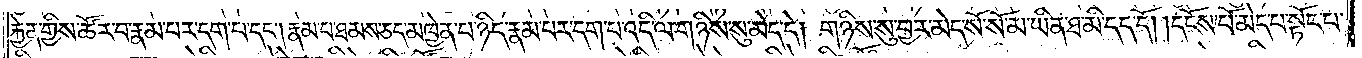རྐྱེན་གྱིས་ཚོར་བ་རྣམ་པར་དག་པ་དང༌། རྣམ་པ་ཐམས་ཅད་མཁྱེན་པ་ཉིད་རྣམ་པར་དག་པ་འདི་ལ་གཉིས་སུ་མེད་དེ། གཉིས་སུ་བྱར་མེད་སོ་སོ་མ་ཡིན་ཐ་མི་དད་དོ། །དངོས་པོ་མེད་པ་སྟོང་པ་
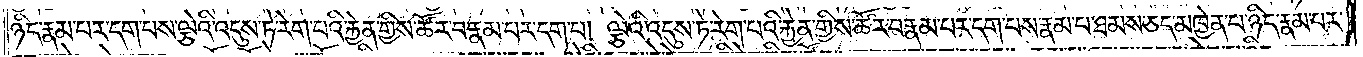ཉིད་རྣམ་པར་དག་པས་ལྕེའི་འདུས་ཏེ་རེག་པའི་རྐྱེན་གྱིས་ཚོར་བ་རྣམ་པར་དག་པ། ལྕེའི་འདུས་ཏེ་རེག་པའི་རྐྱེན་གྱིས་ཚོར་བ་རྣམ་པར་དག་པས་རྣམ་པ་ཐམས་ཅད་མཁྱེན་པ་ཉིད་རྣམ་པར་
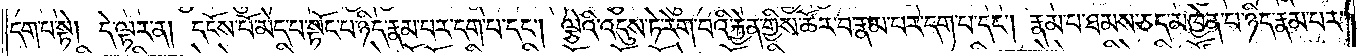དག་པ་སྟེ། དེ་ལྟར་ན། དངོས་པོ་མེད་པ་སྟོང་པ་ཉིད་རྣམ་པར་དག་པ་དང༌། ལྕེའི་འདུས་ཏེ་རེག་པའི་རྐྱེན་གྱིས་ཚོར་བ་རྣམ་པར་དག་པ་དང༌། རྣམ་པ་ཐམས་ཅད་མཁྱེན་པ་ཉིད་རྣམ་པར་
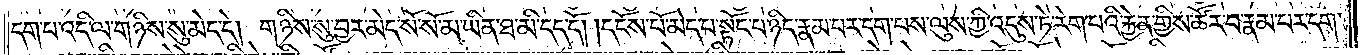དག་པ་འདི་ལ་གཉིས་སུ་མེད་དེ། གཉིས་སུ་བྱར་མེད་སོ་སོ་མ་ཡིན་ཐ་མི་དད་དོ། །དངོས་པོ་མེད་པ་སྟོང་པ་ཉིད་རྣམ་པར་དག་པས་ལུས་ཀྱི་འདུས་ཏེ་རེག་པའི་རྐྱེན་གྱིས་ཚོར་བ་རྣམ་པར་དག་
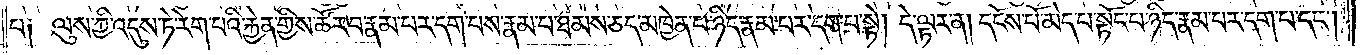པ། ལུས་ཀྱི་འདུས་ཏེ་རེག་པའི་རྐྱེན་གྱིས་ཚོར་བ་རྣམ་པར་དག་པས་རྣམ་པ་ཐམས་ཅད་མཁྱེན་པ་ཉིད་རྣམ་པར་དག་པ་སྟེ། དེ་ལྟར་ན། དངོས་པོ་མེད་པ་སྟོང་པ་ཉིད་རྣམ་པར་དག་པ་དང༌།
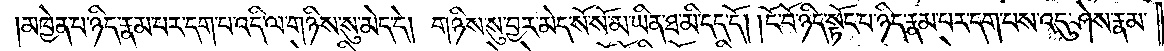མཁྱེན་པ་ཉིད་རྣམ་པར་དག་པ་འདི་ལ་གཉིས་སུ་མེད་དེ། གཉིས་སུ་བྱར་མེད་སོ་སོ་མ་ཡིན་ཐ་མི་དད་དོ། །ངོ་བོ་ཉིད་སྟོང་པ་ཉིད་རྣམ་པར་དག་པས་འདུ་ཤེས་རྣམ་
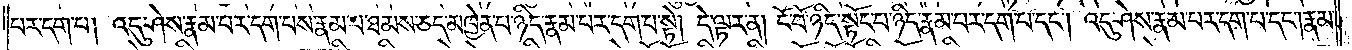པར་དག་པ། འདུ་ཤེས་རྣམ་པར་དག་པས་རྣམ་པ་ཐམས་ཅད་མཁྱེན་པ་ཉིད་རྣམ་པར་དག་པ་སྟེ། དེ་ལྟར་ན། ངོ་བོ་ཉིད་རྣམ་པར་དག་པ་དང༌། འདུ་ཤེས་རྣམ་པར་དག་པ་དང༌། རྣམ་
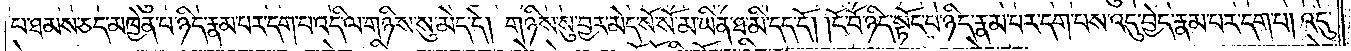པ་ཐམས་ཅད་མཁྱེན་པ་ཉིད་རྣམ་པར་དག་པ་འདི་ལ་གཉིས་སུ་མེད་དེ། གཉིས་སུ་བྱར་མེད་སོ་སོ་མ་ཡིན་ཐ་མི་དད་དོ། །ངོ་བོ་ཉིད་སྟོང་པ་ཉིད་རྣམ་པར་དག་པས་འདུ་བྱེད་རྣམ་པར་དག་པ། འདུ་
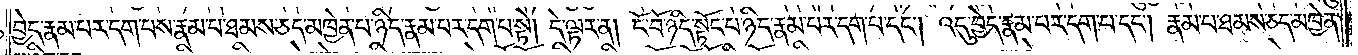བྱེད་རྣམ་པར་དག་པས་རྣམ་པ་ཐམས་ཅད་མཁྱེན་པ་ཉིད་རྣམ་པར་དག་པ་སྟེ། དེ་ལྟར་ན། ངོ་བོ་ཉིད་སྟོང་པ་ཉིད་རྣམ་པར་དག་པ་དང༌། འདུ་བྱེད་རྣམ་པར་དག་པ་དང༌། རྣམ་པ་ཐམས་ཅད་མཁྱེན་
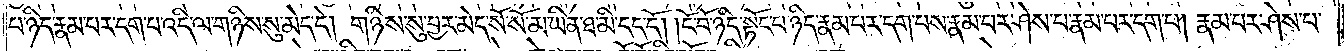པ་ཉིད་རྣམ་པར་དག་པ་འདི་ལ་གཉིས་སུ་མེད་དེ། གཉིས་སུ་བྱར་མེད་སོ་སོ་མ་ཡིན་ཐ་མི་དད་དོ། །ངོ་བོ་ཉིད་སྟོང་པ་ཉིད་རྣམ་པར་དག་པས་རྣམ་པར་ཤེས་པ་རྣམ་པར་དག་པ། རྣམ་པར་ཤེས་པ་
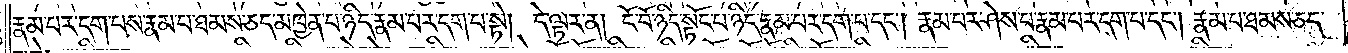རྣམ་པར་དག་པས་རྣམ་པ་ཐམས་ཅད་མཁྱེན་པ་ཉིད་རྣམ་པར་དག་པ་སྟེ། དེ་ལྟར་ན། ངོ་བོ་ཉིད་སྟོང་པ་ཉིད་རྣམ་པར་དག་པ་དང༌། རྣམ་པར་ཤེས་པ་རྣམ་པར་དག་པ་དང༌། རྣམ་པ་ཐམས་ཅད་
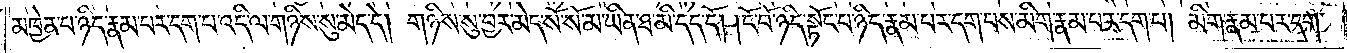མཁྱེན་པ་ཉིད་རྣམ་པར་དག་པ་འདི་ལ་གཉིས་སུ་མེད་དེ། གཉིས་སུ་བྱར་མེད་སོ་སོ་མ་ཡིན་ཐ་མི་དད་དོ། །ངོ་བོ་ཉིད་སྟོང་པ་ཉིད་རྣམ་པར་དག་པས་མིག་རྣམ་པར་དག་པ། མིག་རྣམ་པར་དག་
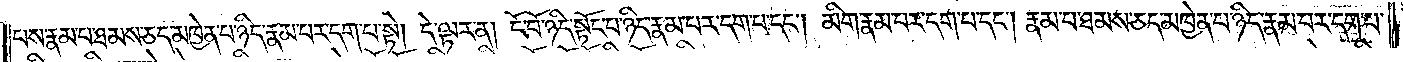པས་རྣམ་པ་ཐམས་ཅད་མཁྱེན་པ་ཉིད་རྣམ་པར་དག་པ་སྟེ། དེ་ལྟར་ན། ངོ་བོ་ཉིད་སྟོང་པ་ཉིད་རྣམ་པར་དག་པ་དང༌། མིག་རྣམ་པར་དག་པ་དང༌། རྣམ་པ་ཐམས་ཅད་མཁྱེན་པ་ཉིད་རྣམ་པར་དག་པ་
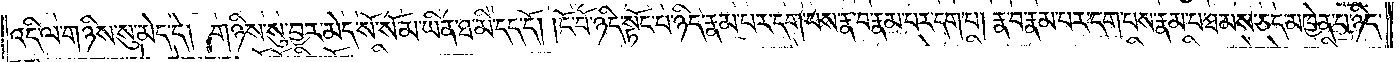འདི་ལ་གཉིས་སུ་མེད་དེ། གཉིས་སུ་བྱར་མེད་སོ་སོ་མ་ཡིན་ཐ་མི་དད་དོ། །ངོ་བོ་ཉིད་སྟོང་པ་ཉིད་རྣམ་པར་དག་པས་རྣ་བ་རྣམ་པར་དག་པ། རྣ་བ་རྣམ་པར་དག་པས་རྣམ་པ་ཐམས་ཅད་མཁྱེན་པ་ཉིད་
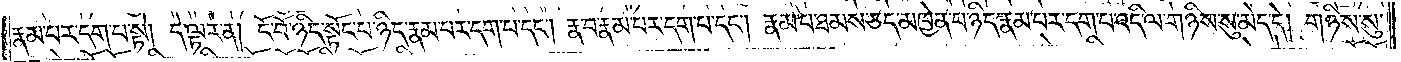རྣམ་པར་དག་པ་སྟེ། དེ་ལྟར་ན། ངོ་བོ་ཉིད་སྟོང་པ་ཉིད་རྣམ་པར་དག་པ་དང༌། རྣ་བ་རྣམ་པར་དག་པ་དང༌། རྣམ་པ་ཐམས་ཅད་མཁྱེན་པ་ཉིད་རྣམ་པར་དག་པ་འདི་ལ་གཉིས་སུ་མེད་དེ། གཉིས་སུ་
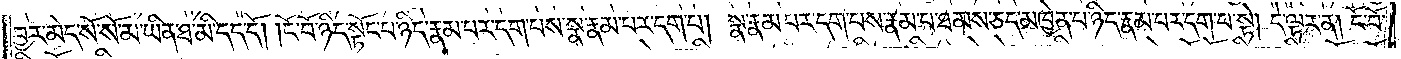བྱར་མེད་སོ་སོ་མ་ཡིན་ཐ་མི་དད་དོ། །ངོ་བོ་ཉིད་སྟོང་པ་ཉིད་རྣམ་པར་དག་པས་སྣ་རྣམ་པར་དག་པ། སྣ་རྣམ་པར་དག་པས་རྣམ་པར་ཐམས་ཅད་མཁྱེན་པ་ཉིད་རྣམ་པར་དག་པ་སྟེ། དེ་ལྟར་ན། ངོ་བོ་
